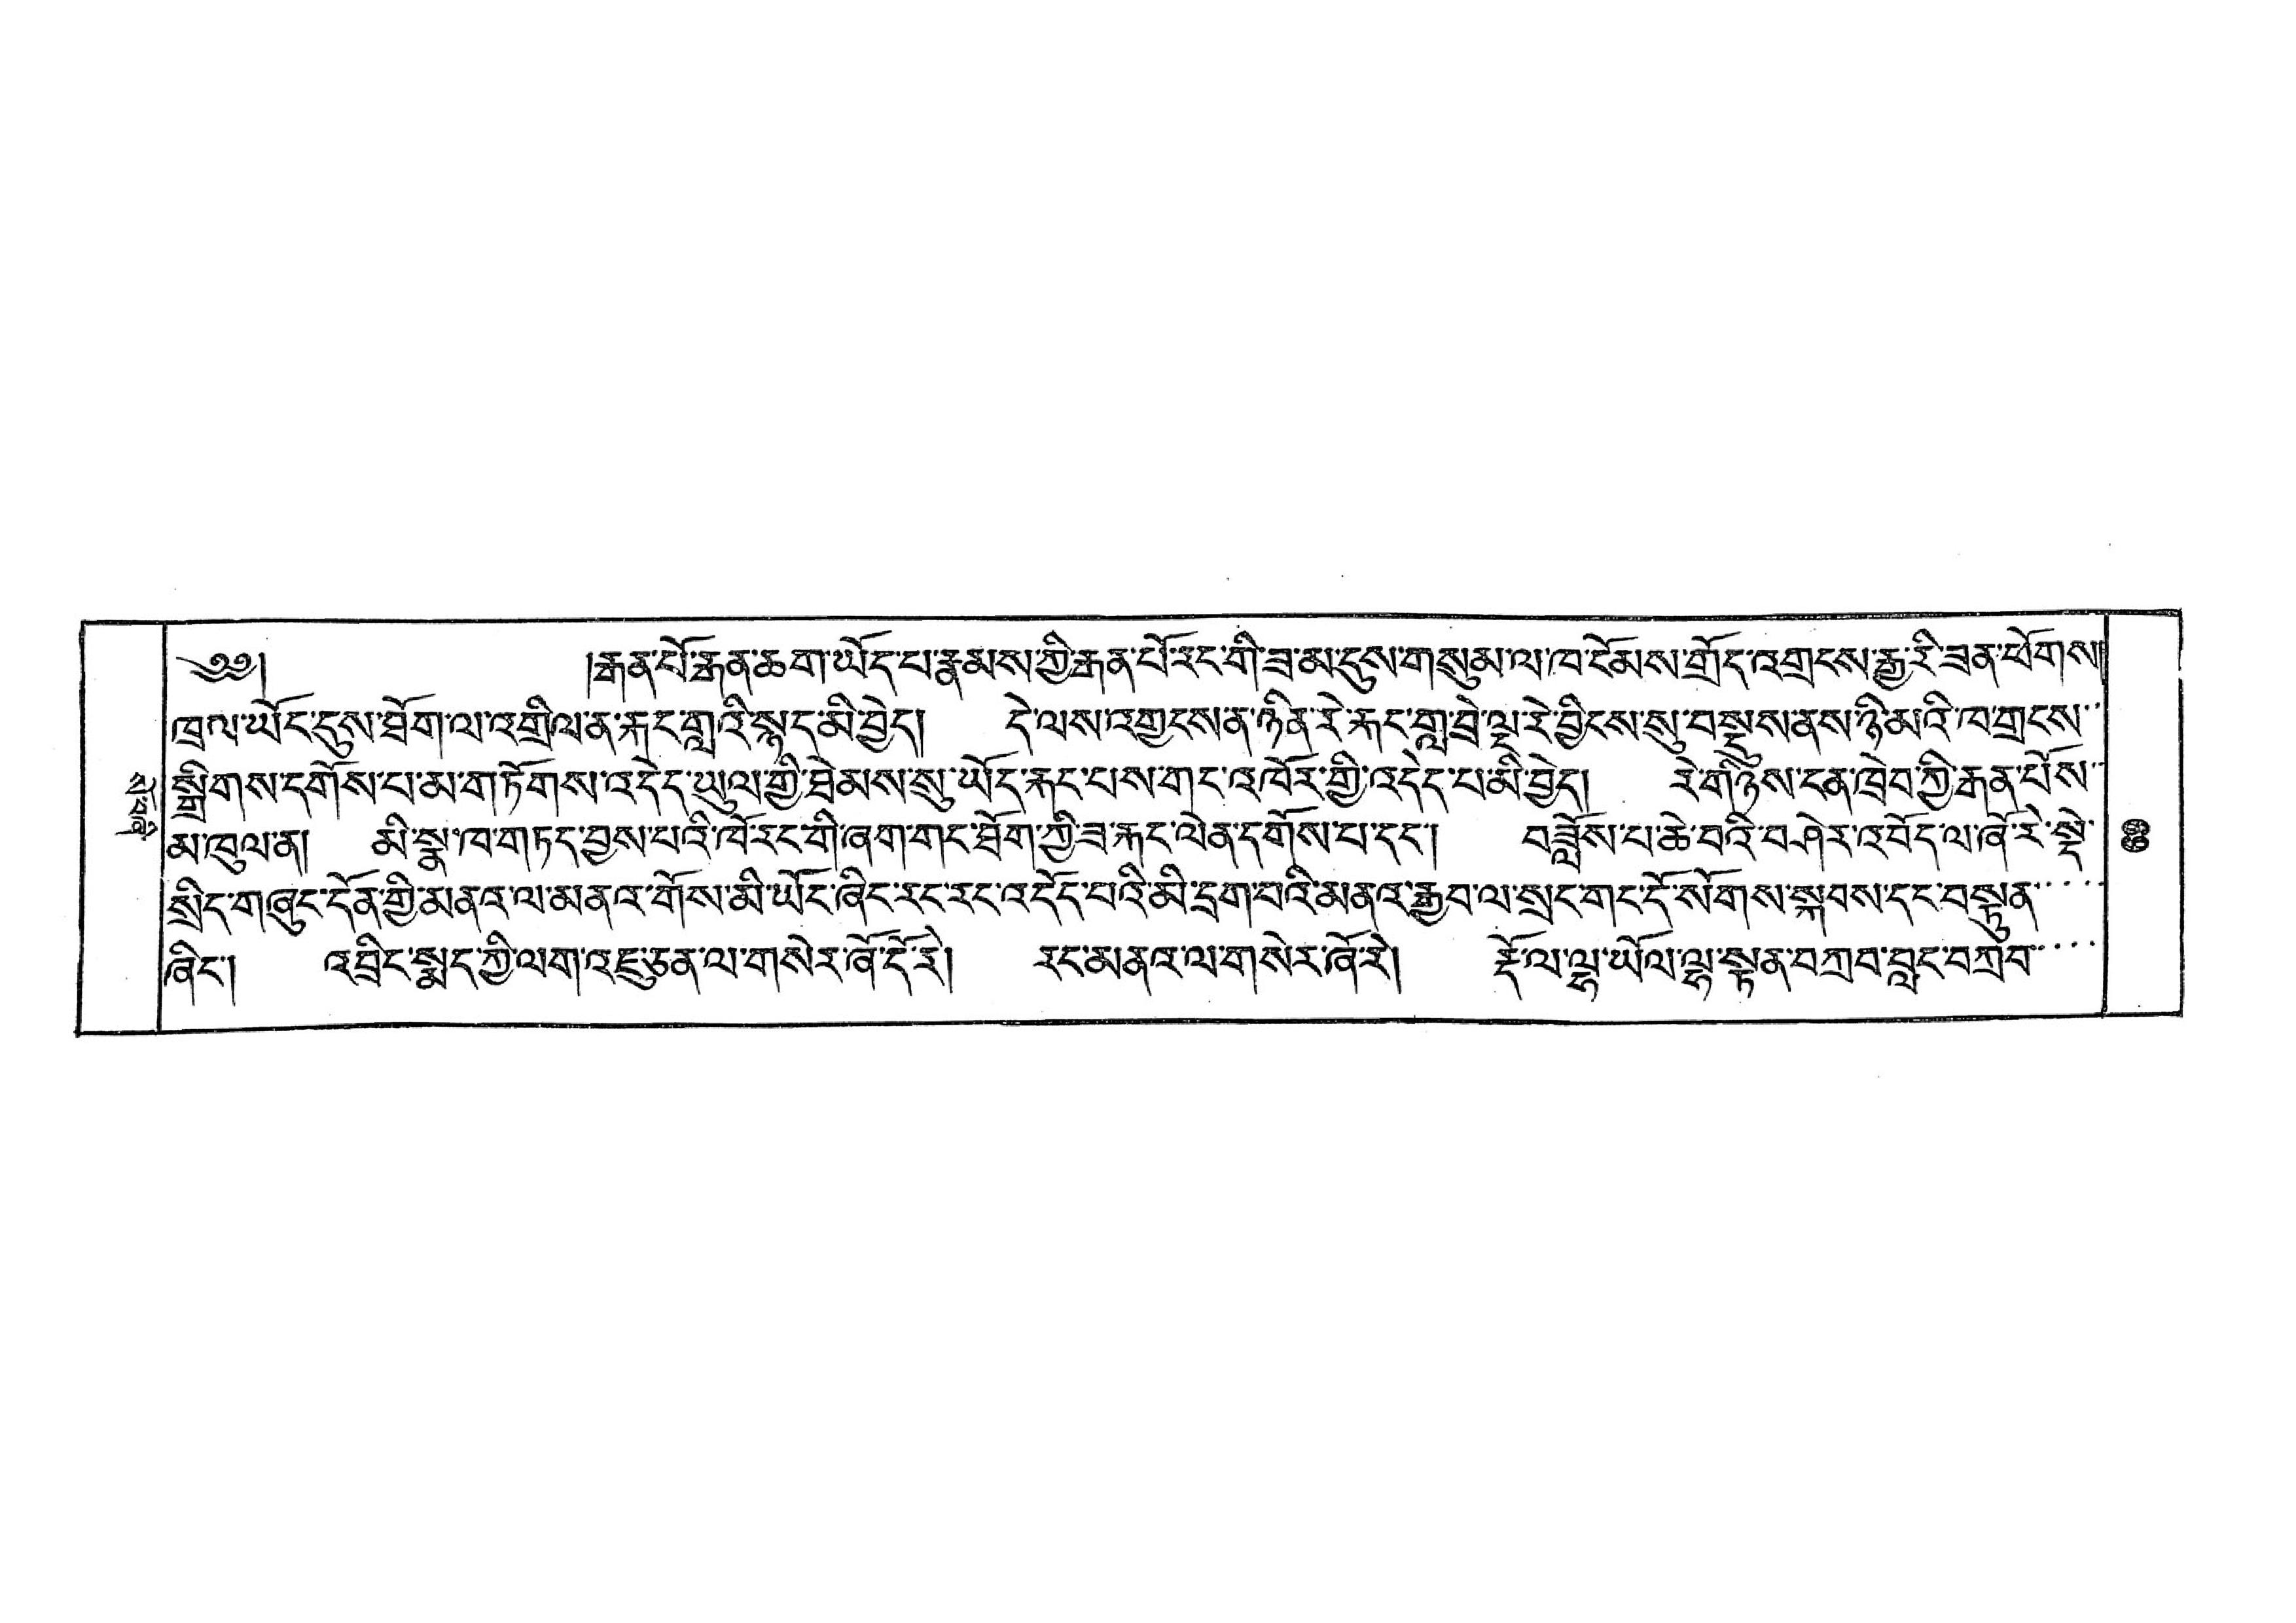སོ་བཞི་
༄༅།  །རྒན་པོ་རྒན་ཆག་ཡོད་པ་རྣམས་གྱི་རྒན་པོ་རང་གི་ཟ་མ་དུས་གསུམ་ལ་ཁ་ངོམས་གྲོད་འགྲངས་རྒྱུ་རི་ཟན་ཕོགས།
ཁྲལ་ཡོང་དུས་ཐོག་ལ་འགྲིལ་ན་རྐང་གླའི་སྙད་མི་བྱེད། དེ་ལས་འགྱངས་ན་ཉིན་རེ་རྐང་གླ་བྲེ་ལྔ་རེ་བྱིངས་སུ་བསྡུས་ནས་ཉི་མའི་ཁ་གྲངས་་་
སྒྲིགས་དགོས་པ་མ་གཏོགས་འདེད་ཡུལ་གྱི་ཐེམས་སུ་ཡོད་རྐང་པས་གང་འཁོར་གྱི་འདེད་པ་མི་བྱེད། རེ་ག་ཉིས་ངན་ཁྲེབ་ཀྱི་རྒན་པོས་་
མ་ཁུལ་ན། མི་སྣ་ཁ་གཏད་བྱས་པའི་ཁོ་རང་གི་ཞག་གང་ཐོག་ཀྱི་ཟ་རྐང་ལེན་དགོས་པ་དང་། བཟློས་པ་ཆེ་བའི་བཤེར་འབོད་ལ་ཞོ་རེ་སྡེ་
སྲིད་གཞུང་དོན་གྱི་མནའ་ལ་མནའ་གོས་མི་ཡོང་ཞིང་རང་རང་འདོད་པའི་མི་དྲག་པའི་མནའ་རྒྱབ་ལ་སྲང་གང་དོ་སོགས་སྐབས་དང་བསྟུན་་་་་
ཞིང་། འབྲིང་སྨད་ཀྱི་ལག་འཇུ་ཅན་ལ་གསེར་ཞོ་དོ་རེ། རང་མནའ་ལ་གསེར་ཞོ་རེ། རྡོ་ལ་ལྷ་ཡོལ་ལྷ་སྟན་བཀྲབ་བླང་བཀྲབ་་་་
